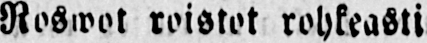Roswot roistot rohkeasti
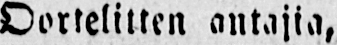Oortelitten antajia,
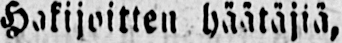Hakijoitten häätäjiä,
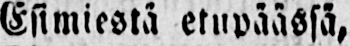Esimiestä etupäässä,
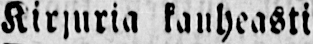Kirjuria kauheasti
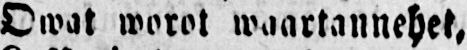Owat worot waartannehet,
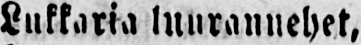Lukkaria lnurannehet,
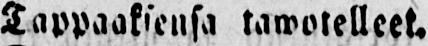Tappaaksensa tawotelleet.
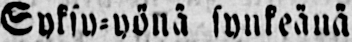Syksy-yönä synkeänä
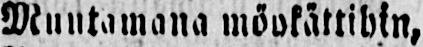Muutamana möykättihin,
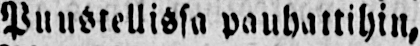puustellissa pauhattihin,
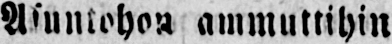Asuntohoa ammuttihin
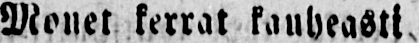Monet kerrat kauheasti.
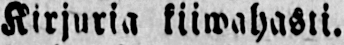Kirjuria kiiwahasti.
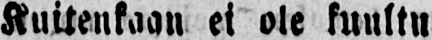Kuitenkaan ei ole kuultu
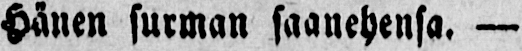Hänen surman saanehensa. —
